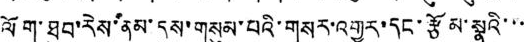ལོག་ཐུབ་རེས་ནམ་དུས་གསུམ་པའི་གསར་འགྱུར་དང་རྩོམ་སྣའི་་
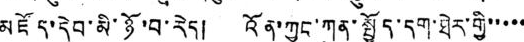མཛོད་དེབ་མི་ཉོ་བ་རེད། འོན་ཀྱང་ཀུན་སྤྱོད་དག་ཐེར་གྱི་་་་་
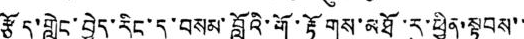རྩོད་གླེང་བྱེད་རིང་དུ་བསམ་བློའི་གོ་རྟོགས་མཐོ་རུ་ཕྱིན་སྟབས་་
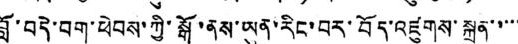བློ་བདེ་བག་ཕེབས་ཀྱི་སྒོ་ནས་ཡུན་རིང་བར་བོད་འཛུགས་སྐྲུན་་་་་
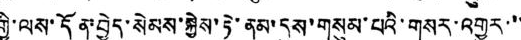གྱི་ལས་དོན་བྱེད་སེམས་སྐྱེས་ཏེ་ནམ་དུས་གསུམ་པའི་གསར་འགྱུར་་་
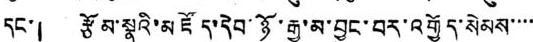དང་། རྩོམ་སྣའི་མཛོད་དེབ་ཉོ་རྒྱུ་མ་བྱུང་བར་འགྱོད་སེམས་་་་
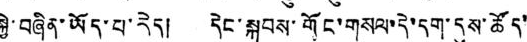སྐྱེ་བཞིན་ཡོད་པ་རེད། དེང་སྐབས་གོང་གསལ་དེ་དག་དུས་ཚོད་
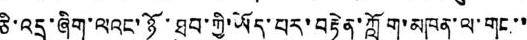ཅི་འདྲ་ཞིག་ལའང་ཉོ་ཐུབ་ཀྱི་ཡོད་པར་བརྟེན་ཀློག་མཁན་ལ་གང་་
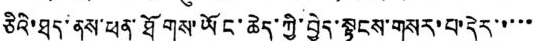ཅིའི་ཐད་ནས་ཕན་ཐོགས་ཡོང་ཆེད་ཀྱི་བྱེད་སྟངས་གསར་བ་དེར་་་་་
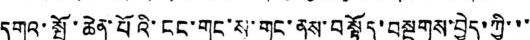དགའ་སྤྲོ་ཆེན་པོའི་ངང་གང་ས་གང་ནས་བསྟོད་བསྔགས་བྱེད་ཀྱི་་་
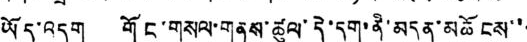ཡོད་འདུག གོང་གསལ་གནས་ཚུལ་དེ་དག་ནི་མདུན་མཆོངས་་
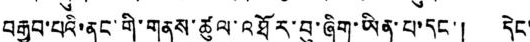བརྒྱབ་པའི་ནང་གི་གནས་ཚུལ་འཐོར་བུ་ཞིག་ཡིན་པ་དང་། དེང་
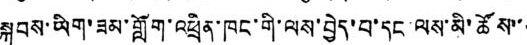སྐབས་ཡིག་ཟམ་གློག་འཕྲིན་ཁང་གི་ལས་བྱེད་པ་དང་ལས་མི་ཚོས་་་
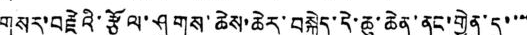གསར་བརྗེའི་རྩོལ་ཤུགས་ཆེས་ཆེར་བསྐྱེད་དེ་ཆུ་ཆེན་ནང་གྱེན་དུ་་་་
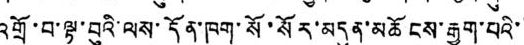འགྲོ་བ་ལྟ་བུའི་ལས་དོན་ཁག་སོ་སོར་མདུན་མཆོངས་རྒྱག་པའི་་
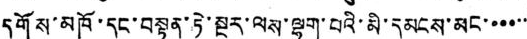དགོས་མཁོ་དང་བསྟུན་ཏེ་སྔར་ལས་ལྷག་པའི་མི་དམངས་མང་་་་་་་
